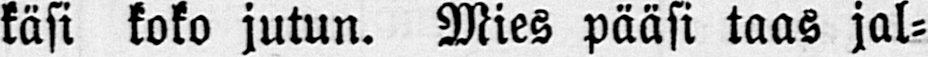käsi koko jutun. Mies pääsi taas jal-
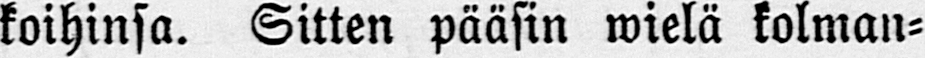koihinsa. Sitten pääsin wielä kolman-
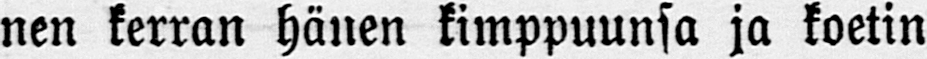nen kerran hänen kimppuunsa ja koetin
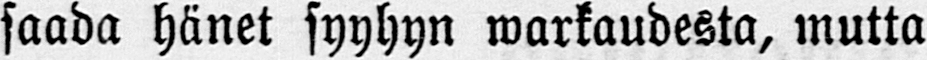saada hänet syyhyn warkaudesta, mutta
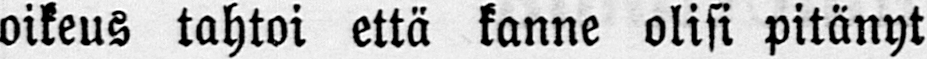oikeus tahtoi että kanne olisi pitänyt
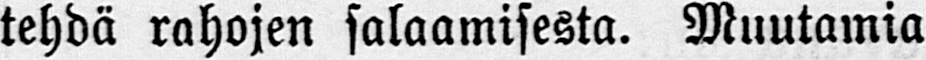tehdä rahojen salaamisesta. Muutamia
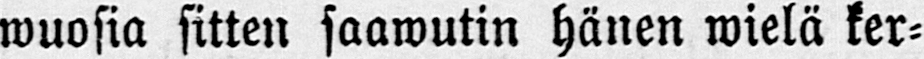wuosia sitten saawutin hänen wielä ker-
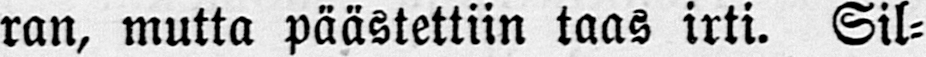ran, mutta päästettiin taas irti. Sil-
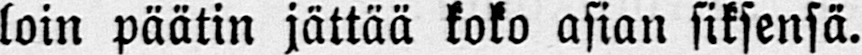loin päätin jättää koko asian siksensä.
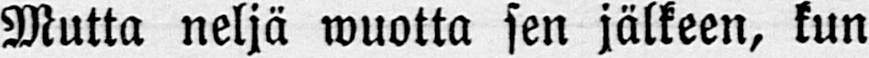Mutta neljä wuotta sen jälkeen, kun
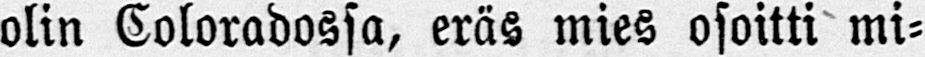olin Coloradossa, eräs mies osoitti mi-
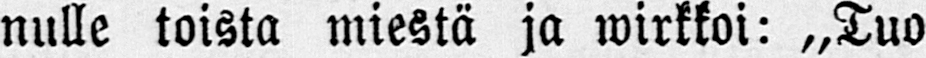nulle toista miestä ja wirkkoi: „Tuo
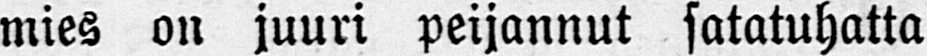mies on juuri peijannut satatuhatta
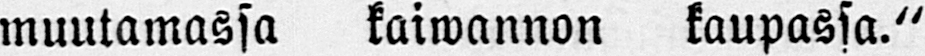muutamassa kaiwannon kaupassa."
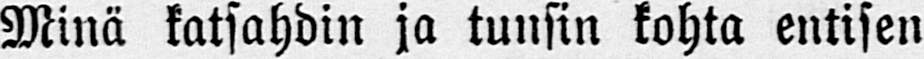Minä katsahdin ja tunsin kohta entisen
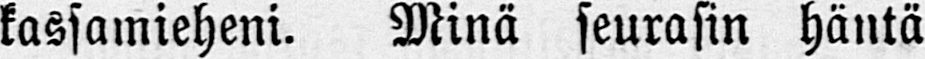kassamieheni. Minä seurasin häntä
